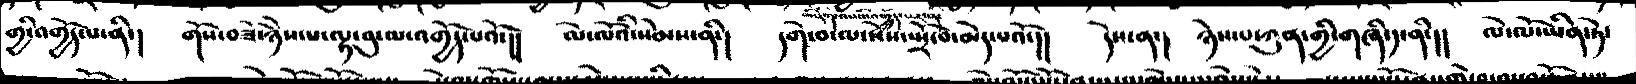གྱི་འགྱོད་པ་ནི་།  གོས་བཟོ་ཉེས་པ་ལྟ་བུ་ལ་འགྱོད་པའོ་།།  ལེ་ལོའི་སེམས་ནི་།  དགེ་བ་ལ་སེཾས་སྤྲོ་བ་མེད་པའོ་།།  དེས་ན་།   ཉེས་པ་ཀུན་གྱི་གཞི་༡་ནི་།།  ལེ་ལོ་ཡིན་ཏེ་
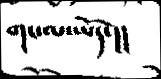གང་ལ་ཡོད་།།
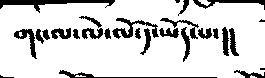གང་ལ་ལེ་ལོ་དུ་ཡོད་པ་།།
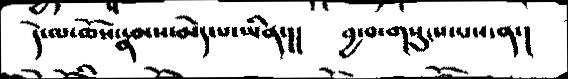དེ་ལ་ཆོས་རྣམས་མེད་པ་ཡིན་།།  བྱ་བ་གསུངས་པས་ན་།
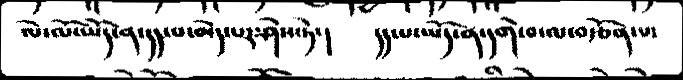ལེ་ལོ་ཡོད་ན་དད་པ་མེད་པར་ཤེས་ཏེ་།   དད་པ་ཡོད་ན་དགེ་བ་ལ་བརྩོན་པ་
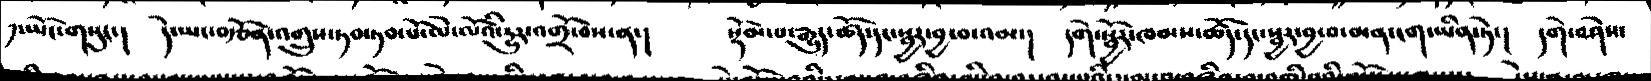དུ་ཡོང་གསུང་།   དེ་ཡང་བརྩོན་འགྲུས་ཏབ་ཏབ་པོ་ལེ་ལོསའི་དྱུར་འགྲོ་བས་ན་།   སྡོམ་པ་རྒྱུད་ཚོད་དང་སྦྱར་བྱ་བ་འམ་།  དགེ་སྦྱོར་ཁམས་ཚོད་དང་སྦྱར་བྱ་བ་མན་ངག་ཡིན་ཏེ་།  དགེ་བཤེས་
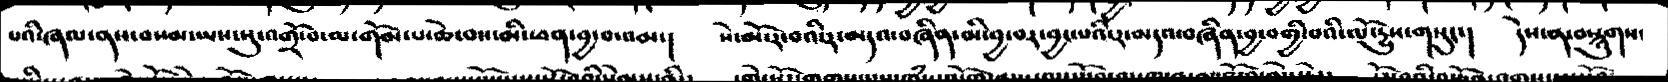པའི་ཞལ་ནས་བསམ་ཡས་སུ་འགྲོ་བ་ལ་གོམ་པ་ཆེ་བས་མི་ཕན་བྱ་བ་འམ་།   སེ་མོ་ར་བའི་ར་མདའ་བཞིན་མི་བྱ་བར་བྱང་པའི་ར་མདའ་བཞིན་བྱ་བགྱི་བའ་ལོ་དྱུས་གསུང་།  དེས་ན་བསྙུགས་
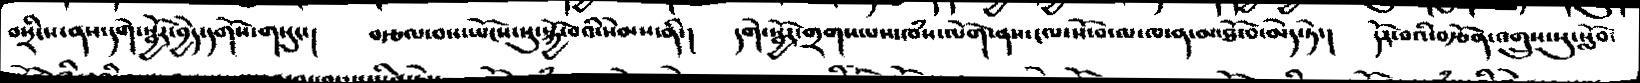བསྲིངས་ནས་དགེ་སྦྱོར་བྱེད་དགོས་གསུང་།    བརྩལ་བས་ཡོངས་སུ་སྐྱོ་བའི་སེམས་ནི་།  དགེ་སྦྱོར་གྲགས་ལས་ཁཾས་ལོག་ནས་ངལ་སོ་བ་ལ་ཁ་ན་མ་ཐོ་བ་མེད་ཏེ་།  དོར་བའི་བརྩོན་འགྲུས་སུ་སློབ་
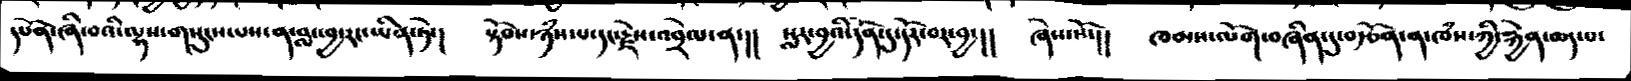དཔོན་ཞི་བའི་ལྷས་གསུངས་པས་ན་བླ་བྱ་རང་ཡིན་ཏེ་།  སྟོབས་ཉཾས་པ་དང་རྗེས་འབྲེལ་ན་།།  སླར་བྱའི་དོན་དུ་དོར་བ་བྱ་།།  ཞེས་སོ་།།  ཁམས་ལོག་བཞིན་དུ་བརྩོན་ན་ཁཾས་ཀྱི་རྐྱེན་ཆད་པ་
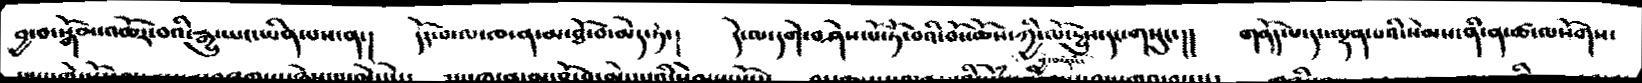བྱ་བ་སྒོམ་འཆོར་བའི་རྒྱུ་ཡང་ཡིན་པས་ན་།  དོར་བ་ལ་ཁ་ན་མ་ཐོ་བ་མེད་ཏེ་།  དེ་ལ་དགེ་བཤེས་པོ་ཏོ་བའི་མོ་ཆོས་ཀྱི་ལོ་དྱུས་དང་གསུང་།།  གནོད་པ་དང་ལྡན་པའི་སེམས་ནི་ན་ཚ་ལསོགས་
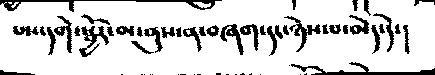པས་དགེ་སྦྱོར་མ་ནུས་ན་བཞག་དང་ཉེས་པ་མེད་དེ་།
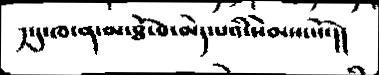༡་དུ་ཁ་ན་མ་ཐོ་བ་མེད་པའི་སེམས་སོ་།།
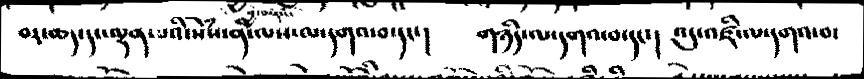བར་ཆད་དང་ལྡན་པའི་སེཾན་ན་ལས་ལ་དགའ་བ་དང་།   གཉིད་ལ་དགའ་བ་དང་།  འདུ་འཛི་ལ་དགའ་བ་
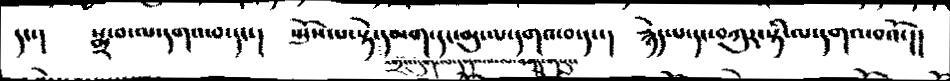དང་།   སྨྲ་བ་ལ་དགའ་བ་དང་།   སྤྲོས་པ་སྟེ་དམག་དང་མུ་ལ་དགའ་བ་དང་།    རྙེད་པ་དང་བཀུར་སྟི་ལ་དགའ་བའོ་།།
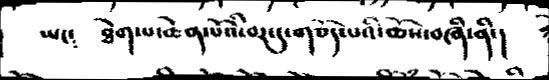ཡང༴    ཐེག་པའ་ཆེན་པོའི་བར་དུ་གཅོད་པའི་ཆོས་བཞི་ནི་།
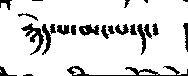རྙེད་པ་མང་པ་དང་
